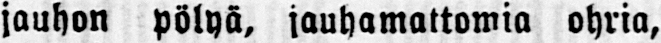jauhon pölyä, jauhamattomia ohria,
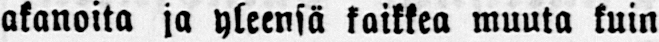akanoita ja yleensä kaikkea muuta kuin
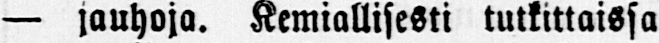— jauhoja. Kemiallisesti tutkittaissa
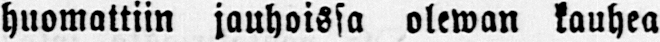huomattiin jauhoissa olewan kauhea
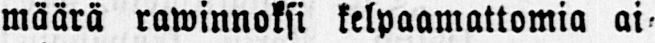määrä rawinnoksi kelpaamattomia ai-
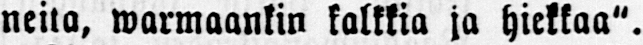neito, warmaankin kalkkia ja hiekkaa".
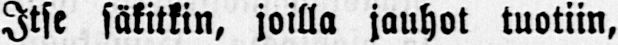Itse säkitkin, joilla jauhot tuotiin,
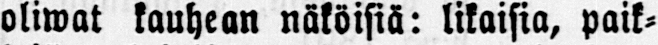oliwat kauhean näköisiä: likaisia, paik-
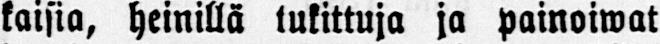kaisia, heinillä lukittuja ja painoiwat
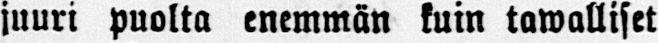juuri puolta enemmän kuin tawalliset
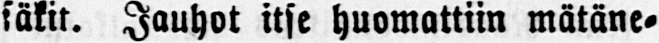säkit. Jauhot itse huomattiin mätäne-
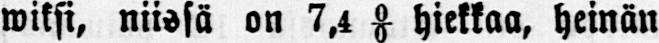wiksi, niissä on 7,4 0/0 hiekkaa, heinän
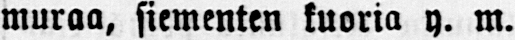muraa, siementen kuoria y. m.
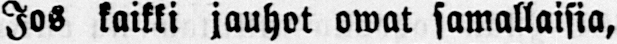Jos kaikki jauhot owat samallaisia,
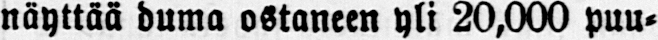näyttää duma ostaneen yli 20,000 puu-
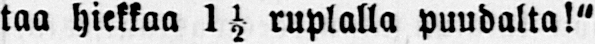taa hiekkaa 1½ ruplalla puudalta!"
